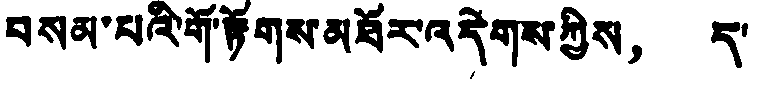བསམ་པའི་གོ་རྟོགས་མཐོར་འདེགས་ཀྱིས， ད་
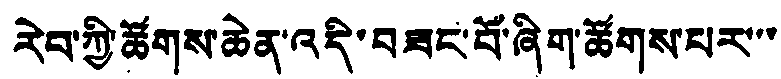རེབ་ཀྱི་ཚོགས་ཆེན་འདི་བཟང་པོ་ཞིག་ཚོགས་པར་་་་
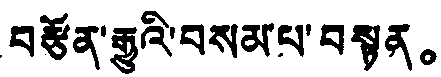བརྩོན་རྒྱུའི་བསམ་པ་བསྟན。
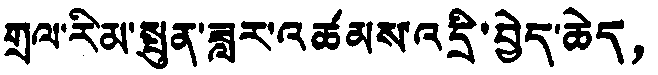གྲལ་རིམ་སྤུན་ཟླར་འཚམས་འདྲི་བྱེད་ཆེད，
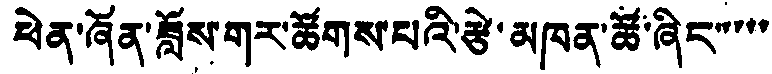ཕེན་ཞོན་ཟློས་གར་ཚོགས་པའི་རྩེ་མཁན་ཚོ་ཞིང་་་་་
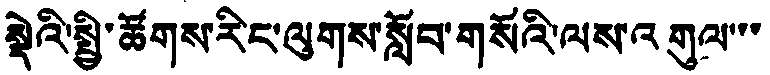སྡེའི་སྤྱི་ཚོགས་རིང་ལུགས་སློབ་གསོའི་ལས་འགུལ་་་
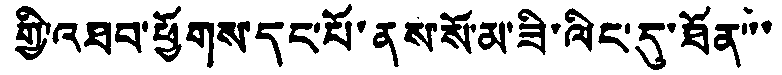གྱི་འཐབ་ཕྱོགས་དང་པོ་ནས་སོ་མ་ཟི་ལིང་དུ་ཐོན་་་
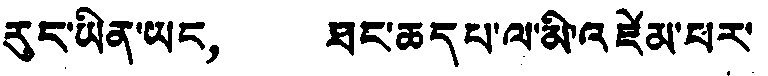རུང་ཡིན་ཡང， ཐང་ཆད པ་ལ་མི་འཛེམ་པར་
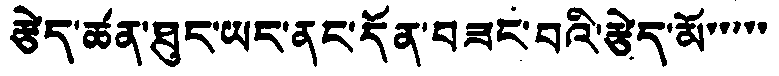རྩེད་ཚན་ཐུང་ཡང་ནང་དོན་བཟང་བའི་རྩེད་མོ་་་་་་
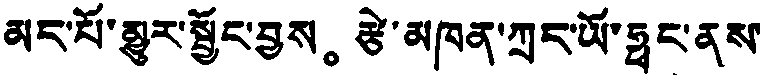མང་པོ་མྱུར་སྦྱོང་བྱས。རྩེ་མཁན་ཀྲང་ཡོ་ཧྥང་ནས་
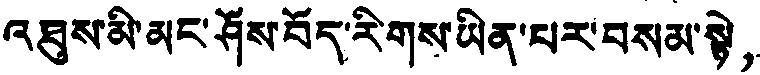འཐུས་མི་མང་ཤོས་བོད་རིགས་ཡིན་པར་བསམ་སྟེ，
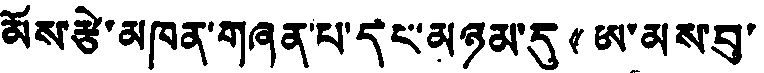མོས་རྩེ་མཁན་གཞན་པ་དང་མཉམ་དུ《ཨ་མས་བུ་
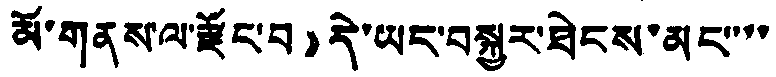མོ་གནས་ལ་རྫོང་བ》དེ་ཡང་བསྐྱར་ཐེངས་མང་་་་
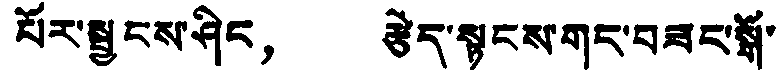པོར་སྦྱངས་ཤིང， རྩེད་སྟངས་གང་བཟང་སྒོ་
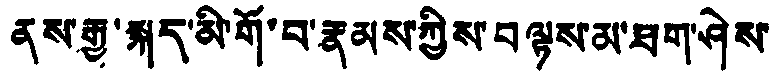ནས་རྒྱ་སྐད་མི་གོ་བ་རྣམས་ཀྱིས་བལྟས་མ་ཐག་ཤེས་
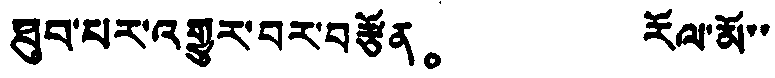ཐུབ་པར་འགྱུར་བར་བརྩོན。 རོལ་མོ་་
